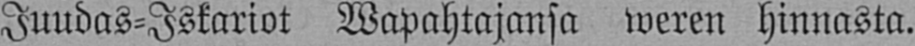Juudas-Iskariot Wapahtajansa weren hinnasta.
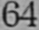64
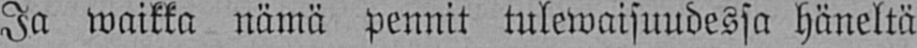Ja waikka nämä pennit tulewaisuudessa häneltä
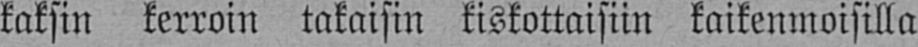kaksin kerroin takaisin kiskottaisiin kaikenmoisilla
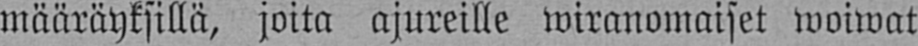määräyksillä, joita ajureille wiranomaiset woiwat
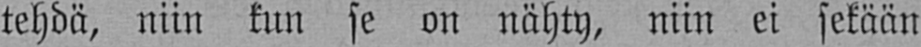tehdä, niin kun se on nähty, niin ei sekään
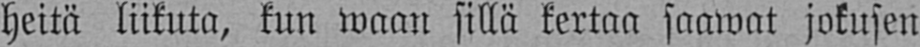heitä liikuta, kun waan sillä kertaa saawat jokusen
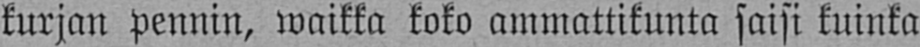kurjan pennin, waikka koko ammattikunta saisi kuinka
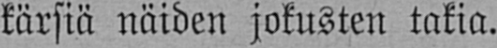kärsiä näiden jokusten takia.
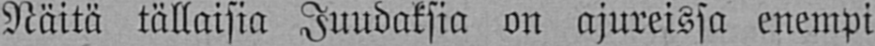Näitä tällaisia Juudaksia on ajureissa enempi
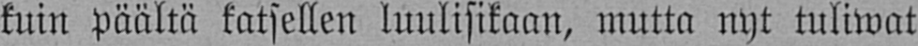kuin päältä katsellen luulisikaan, mutta nyt tuliwat
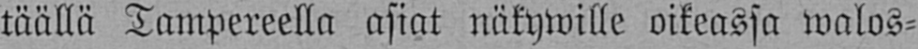täällä Tampereella asiat näkywille oikeassa walos-
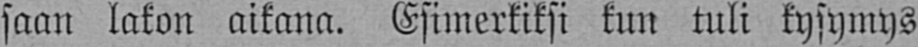saan lakon aikana. Esimerkiksi kun tuli kysymys
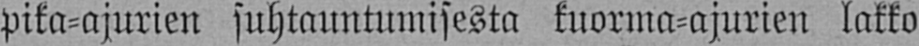pika-ajurien suhtauntumisesta kuorma-ajurien lakko
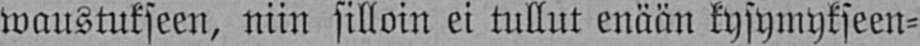waustukseen, niin silloin ei tullut enään kysymykseen-
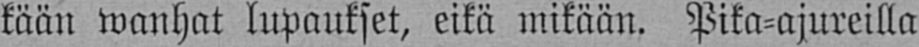kään wanhat lupaukset, eikä mikään. Pika-ajureilla
